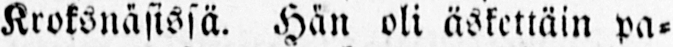Kroksnäsissä. Hän oli äskettäin pa-
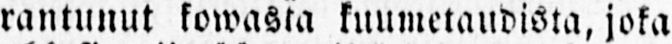rantunut kowasta kuumetaudista, joka
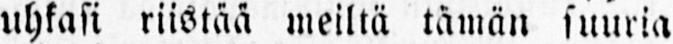uhkasi riistää meiltä tämän suuria
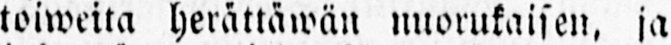toiweita herättäwän nuorukaisen, ja
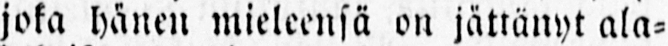joka hänen mieleensä on jättänyt ala-
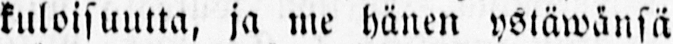kuloisuutta, ja me hänen ystäwänsä
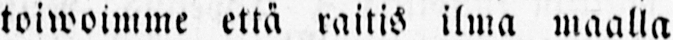toiwoimme että raitis ilma maalla
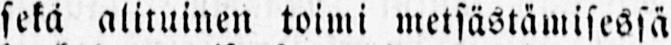sekä alituinen toimi metsästämisessä
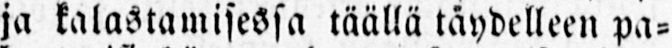ja kalastamisessa täällä täydelleen pa-
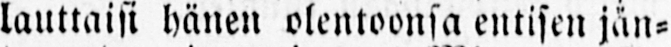lauttaisi hänen olentoonsa entisen jän-
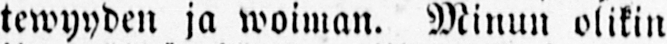tewyyden ja woiman. Minun olikin
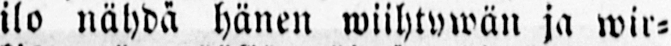ilo nähdä hänen wiihtywän ja wir-
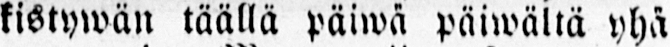kistywän täällä päiwä päiwältä yhä
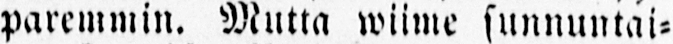paremmin. Mutta wiime sunnuntai-
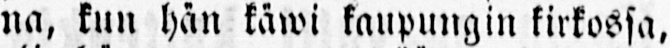na, kun hän käwi kaupungin kirkossa,
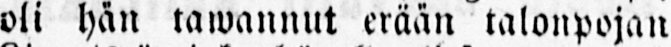oli hän tawannut erään talonpojan
